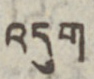འདུག
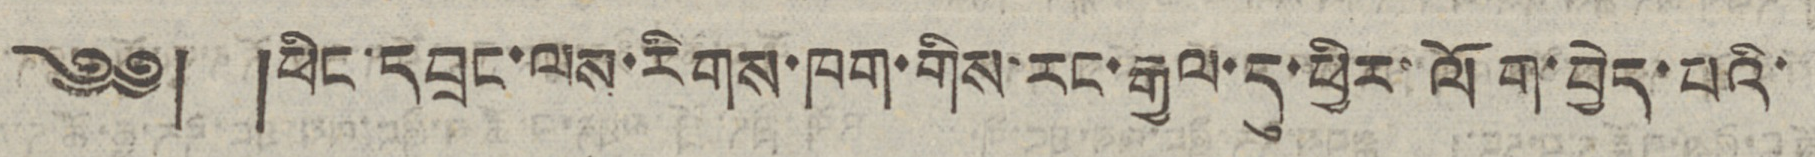༄༅། །ཕིང་དབྲང་ལས་རིགས་ཁག་གིས་རང་རྒྱལ་དུ་ཕྱིར་ལོག་བྱེད་པའི་
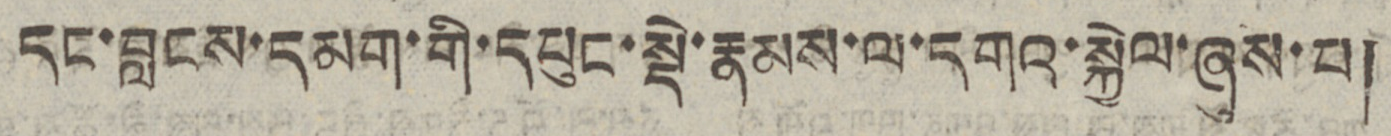དང་བླངས་དམག་གི་དཔུང་སྡེ་རྣམས་ལ་དགའ་སྐྱེལ་ཞུས་པ།
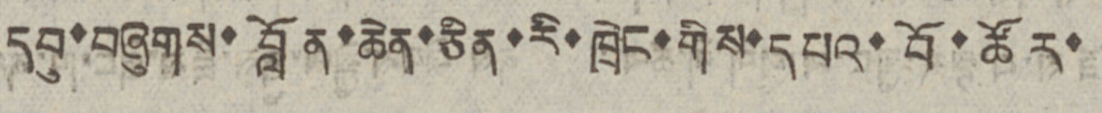དབུ་བཞུགས་བློན་ཆེན་ཅིན་རི་ཁྲེང་གིས་དཔའ་པོ་ཚོར་
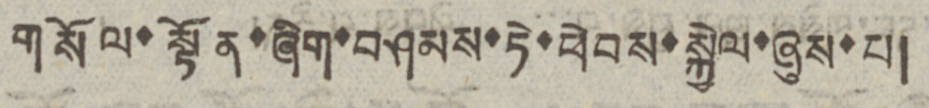གསོལ་སྟོན་ཞིག་བཤམས་ཏེ་ཕེབས་སྐྱེལ་ཞུས་པ།
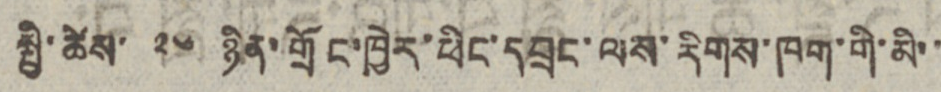སྤྱི་ཚེས་ ༢༦ ཉིན་གྲོང་ཁྱེར་ཕིང་དབྲང་ལས་རིགས་ཁག་གི་མི་་
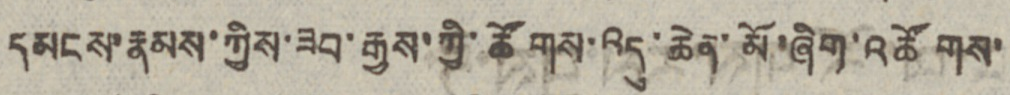དམངས་རྣམས་ཀྱིས་ཟབ་རྒྱས་ཀྱི་ཚོགས་འདུ་ཆེན་མོ་ཞིག་འཚོགས་
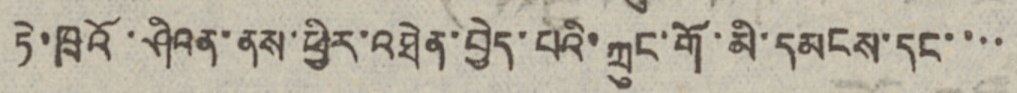ཏེ་ཁྲའོ་ཤིའན་ནས་ཕྱིར་འཐེན་བྱེད་པའི་ཀྲུང་གོ་མི་དམངས་དང་་་་
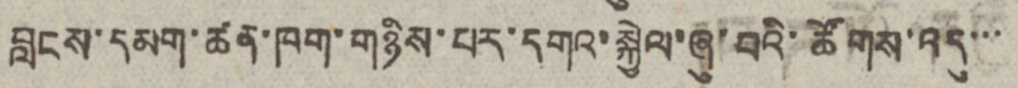བླངས་དམག་ཚན་ཁག་གཉིས་པར་དགའ་སྐྱེལ་ཞུ་བའི་ཚོགས་འདུ་་་
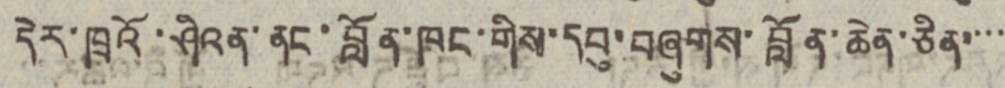དེར་ཁྲའོ་ཤིའན་ནང་བློན་ཁང་གིས་དབུ་བཞུགས་བློན་ཆེན་ཅིན་་་་
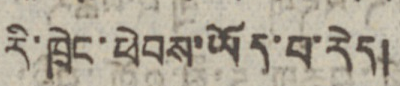རི་ཁྲེང་ཕེབས་ཡོད་པ་རེད།
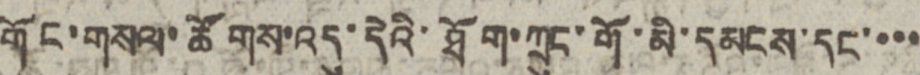གོང་གསལ་ཚོགས་འདུ་དེའི་ཐོག་ཀྲུང་གོ་མི་དམངས་དང་་་་
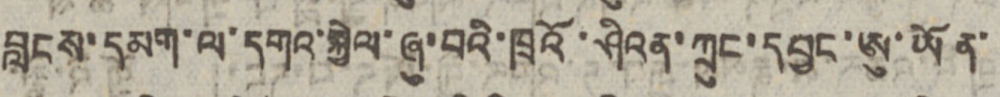བླངས་དམག་ལ་དགའ་སྐྱེལ་ཞུ་བའི་ཁྲོའ་ཤིའན་ཀྲུང་དབྱང་ཨུ་ཡོན་
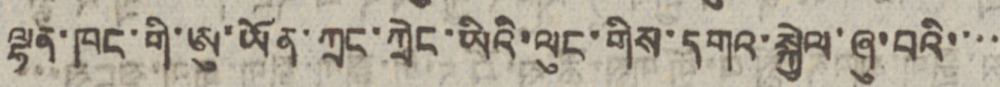ལྷན་ཁང་གི་ཨུ་ཡོན་ཀྲང་ཀྲེང་ཡིའི་ལུང་གིས་དགའ་སྐྱེལ་ཞུ་བའི་་་་
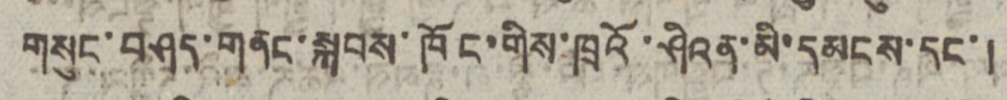གསུང་བཤད་གནང་སྐབས་ཁོང་གིས་ཁྲའོ་ཤིའན་མི་དམངས་དང་།
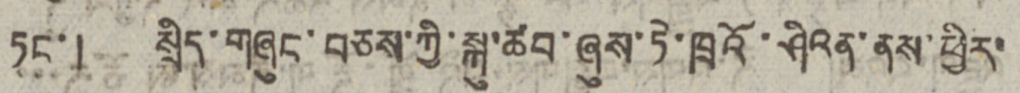ཏང་། སྲིད་གཞུང་བཅས་ཀྱི་སྐུ་ཚབ་ཞུས་ཏེ་ཁྲའོ་ཤིའན་ནས་ཕྱིར་
